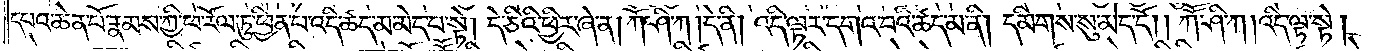དཔའ་ཆེན་པོ་རྣམས་ཀྱི་ཕ་རོལ་ཏུ་ཕྱིན་པ་འདི་ཚད་མ་མེད་པ་སྟེ། དེ་ཅིའི་ཕྱིར་ཞེ་ན། ཀཽ་ཤི་ཀ །དེ་ནི། འདི་ལྟར་དགའ་བའི་ཚད་མ་ནི། དམིགས་སུ་མེད་དོ། །ཀཽ་ཤི་ཀ །འདི་ལྟ་སྟེ།
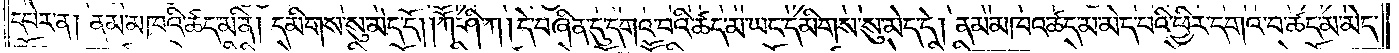དཔེར་ན། ནམ་མཁའི་ཚད་མ་ནི། དམིགས་སུ་མེད་དོ། །ཀཽ་ཤི་ཀ །དེ་བཞིན་དུ་དགའ་བའི་ཚད་མ་ཡང་དམིགས་སུ་མེད་དེ། ནམ་མཁའ་ཚད་མ་མེད་པའི་ཕྱིར་དགའ་བ་ཚད་མ་མེད་
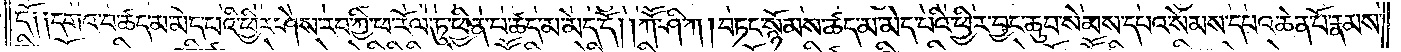དོ༑ ༑དགའ་བ་ཚད་མ་མེད་པའི་ཕྱིར་ཤེས་རབ་ཀྱི་ཕ་རོལ་ཏུ་ཕྱིན་བ་ཚད་མ་མེད་དོ། །ཀཽ་ཤི་ཀ །བཏང་སྙོམས་ཚད་མ་མེད་པའི་ཕྱིར་བྱང་ཆུབ་སེམས་དཔའ་སེམས་དཔའ་ཆེན་པོ་རྣམས་
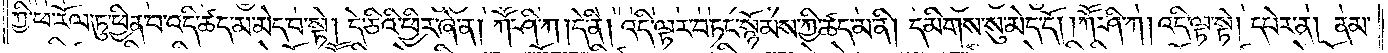ཀྱི་ཕ་རོལ་ཏུ་ཕྱིན་པ་འདི་ཚད་མ་མེད་པ་སྟེ། དེ་ཅིའི་ཕྱིར་ཞེ་ན། ཀཽ་ཤི་ཀ །དེ་ནི། འདི་ལྟར་བཏང་སྙོམས་ཀྱི་ཚད་མ་ནི། དམིགས་སུ་མེད་དོ། །ཀཽ་ཤི་ཀ །འདི་ལྟ་སྟེ། དཔེར་ན། ནམ་
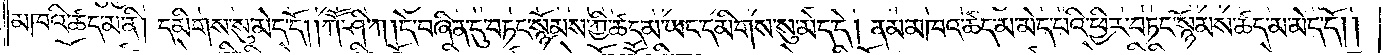མཁའི་ཚད་མ་ནི། དམིགས་སུ་མེད་དོ། །ཀཽ་ཤི་ཀ །དེ་བཞིན་དུ་བཏང་སྙོམས་ཀྱི་ཚད་མ་ཡང་དམིགས་སུ་མེད་དེ། ནམ་མཁའ་ཚད་མ་མེད་པའི་ཕྱིར་བཏང་སྙོམས་ཚད་མ་མེད་དོ། །
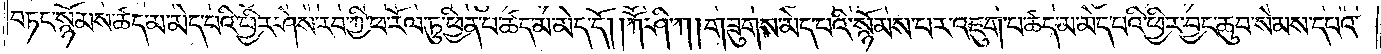བཏང་སྙོམས་ཚད་མེད་པའི་ཕྱིར་ཤེས་རབ་ཀྱི་ཕ་རོལ་ཏུ་ཕྱིན་པ་ཚད་མ་མེད་དོ། །ཀཽ་ཤི་ཀ །གཟུགས་མེད་པའི་སྙོམས་པར་འཇུག་པ་ཚད་མ་མེད་པའི་ཕྱིར་བྱང་ཆུབ་སེམས་དཔའ་
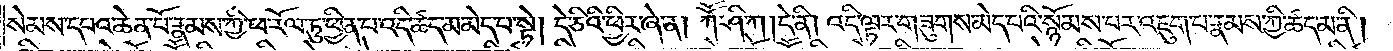སེམས་དཔའ་ཆེན་པོ་རྣམས་ཀྱི་ཕ་རོལ་ཏུ་ཕྱིན་པ་འདི་ཚད་མ་མེད་པ་སྟེ། དེ་ཅིའི་ཕྱིར་ཞེ་ན། ཀཽ་ཤི་ཀ །དེ་ནི། འདི་ལྟར་གཟུགས་མེད་པའི་སྙོམས་པར་འཇུག་པ་རྣམས་ཀྱི་ཚད་མ་ནི།
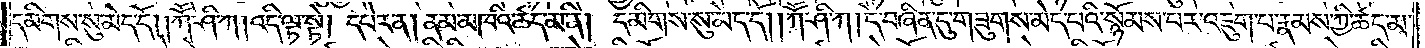དམིགས་སུ་མེད་དོ། །ཀཽ་ཤི་ཀ །འདི་ལྟ་སྟེ། དཔེར་ན། ནམ་མཁའི་ཚད་མ་ནི། དམིགས་སུ་མེད་དོ། །ཀཽ་ཤི་ཀ །དེ་བཞིན་དུ་གཟུགས་མེད་པའི་སྙོམས་པར་འཇུག་པ་རྣམས་ཀྱི་ཚད་མ་
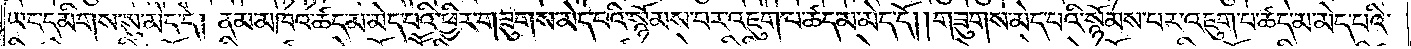ཡང་དམིགས་སུ་མེད་དེ། ནམ་མཁའ་ཚད་མ་མེད་པའི་ཕྱིར་གཟུགས་མེད་པའི་སྙོམས་པར་འཇུག་པ་ཚད་མ་མེད་དོ། །གཟུགས་མེད་པའི་སྙོམས་པར་འཇུག་པ་ཚད་མ་མེད་པའི་
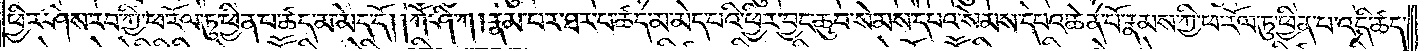ཕྱིར་ཤེས་རབ་ཀྱི་ཕ་རོལ་ཏུ་ཕྱིན་པ་ཚད་མ་མེད་དོ། །ཀཽ་ཤི་ཀ །རྣམ་པར་ཐར་པ་ཚད་མ་མེད་པའི་ཕྱིར་བྱང་ཆུབ་སེམས་དཔའ་སེམས་དཔའ་ཆེན་པོ་རྣམས་ཀྱི་ཕ་རོལ་ཏུ་ཕྱིན་པ་འདི་ཚད་
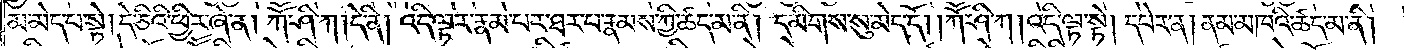མ་མེད་པ་སྟེ། དེ་ཅིའི་ཕྱིར་ཞེ་ན། ཀཽ་ཤི་ཀ །དེ་ནི། འདི་ལྟར་རྣམ་པར་ཐར་པ་རྣམས་ཀྱི་ཚད་མ་ནི། དམིགས་སུ་མེད་དོ། །ཀཽ་ཤི་ཀ །འདི་ལྟ་སྟེ། དཔེར་ན། ནམ་མཁའི་ཚད་མ་ནི།
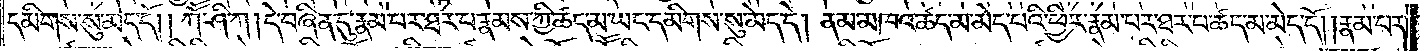དམིགས་སུ་མེད་དོ། །ཀཽ་ཤི་ཀ །དེ་བཞིན་དུ་རྣམ་པར་ཐར་པ་རྣམས་ཀྱི་ཚད་མ་ཡང་དམིགས་སུ་མེད་དེ། ནམ་མཁའ་ཚད་མ་མེད་པའི་ཕྱིར་རྣམ་པར་ཐར་པ་ཚད་མ་མེད་དོ། །རྣམ་པར་
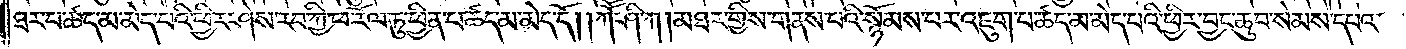ཐར་པ་ཚད་མེད་པའི་ཕྱིར་ཤེས་རབ་ཀྱི་ཕ་རོལ་ཏུ་ཕྱིན་པ་ཚད་མ་མེད་དོ། །ཀཽ་ཤི་ཀ །མཐར་གྱིས་གནས་པའི་སྙོམས་པར་འཇུག་པ་ཚད་མ་མེད་པའི་ཕྱིར་བྱང་ཆུབ་སེམས་དཔའ་
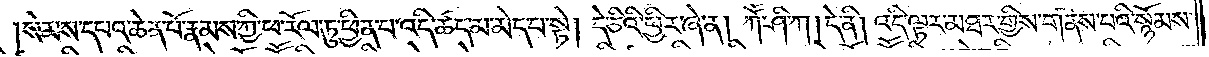སེམས་དཔའ་ཆེན་པོ་རྣམས་ཀྱི་ཕ་རོལ་ཏུ་ཕྱིན་པ་འདི་ཚད་མ་མེད་པ་སྟེ། དེ་ཅིའི་ཕྱིར་ཞེ་ན། ཀཽ་ཤི་ཀ །དེ་ནི། འདི་ལྟར་མཐར་གྱིས་གནས་པའི་སྙོམས་
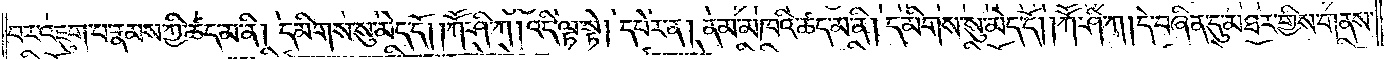པར་འཇུག་པ་རྣམས་ཀྱི་ཚད་མ་ནི། དམིགས་སུ་མེད་དོ། །ཀཽ་ཤི་ཀ །འདི་ལྟ་སྟེ། དཔེར་ན། ནམ་མཁའི་ཚད་མ་ནི། དམིགས་སུ་མེད་དོ། །ཀཽ་ཤི་ཀ །དེ་བཞིན་དུ་མཐར་གྱིས་གནས་
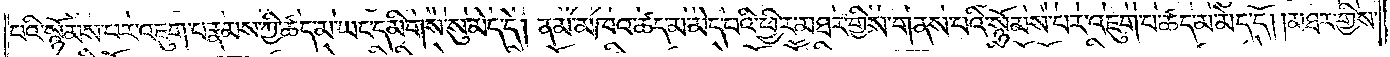པའི་སྙོམས་པར་འཇུག་པ་རྣམས་ཀྱི་ཚད་མ་ཡང་དམིགས་སུ་མེད་དེ། ནམ་མཁའ་ཚད་མ་མེད་པའི་ཕྱིར་མཐར་གྱིས་གནས་པའི་སྙོམས་པར་འཇུག་པ་ཚད་མ་མེད་དོ། །མཐར་གྱིས་
